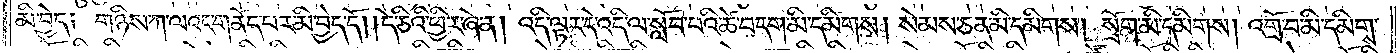མི་བྱེད། གཉིས་ཀ་ལའང་གནོད་པར་མི་བྱེད་དོ། །དེ་ཅིའི་ཕྱིར་ཞེ་ན། འདི་ལྟར་དེ་འདི་ལ་སློབ་པའི་ཚེ་བདག་མི་དམིགས། སེམས་ཅན་མི་དམིགས། སྲོག་མི་དམིགས། འགྲོ་བ་མི་དམིགས།
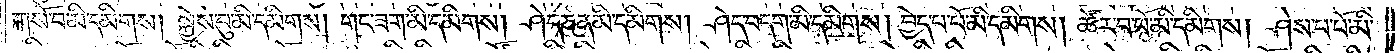གསོ་བ་མི་དམིགས། སྐྱེས་བུ་མི་དམིགས། གང་ཟག་མི་དམིགས། ཤེད་ཅན་མི་དམིགས། ཤེད་བདག་མི་དམིགས། བྱེད་པ་པོ་མི་དམིགས། ཚོར་བ་པོ་མི་དམིགས། ཤེས་པ་པོ་མི་
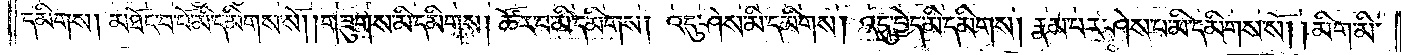དམིགས། མཐོང་བ་པོ་མི་དམིགས་སོ། །གཟུགས་མི་དམིགས། ཚོར་བ་མི་དམིགས། འདུ་ཤེས་མི་དམིགས། འདུ་བྱེད་མི་དམིགས། རྣམ་པར་ཤེས་པ་མི་དམིགས་སོ། །མིག་མི་
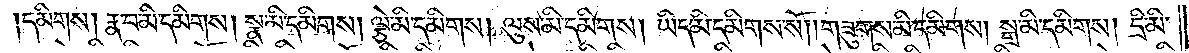དམིགས། རྣ་བ་མི་དམིགས། སྣ་མི་དམིགས། ལྕེ་མི་དམིགས། ལུས་མི་དམིགས། ཡིད་མི་དམིགས་སོ། །གཟུགས་མི་དམིགས། སྒྲ་མི་དམིགས། དྲི་མི་
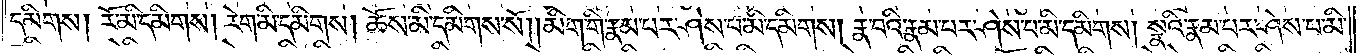དམིགས། རོ་མི་དམིགས། རེག་མི་དམིགས། ཆོས་མི་དམིགས་སོ། །མིག་གི་རྣམ་པར་ཤེས་པ་མི་དམིགས། རྣ་བའི་རྣམ་པར་ཤེས་པ་མི་དམིགས། སྣའི་རྣམ་པར་ཤེས་པ་མི་
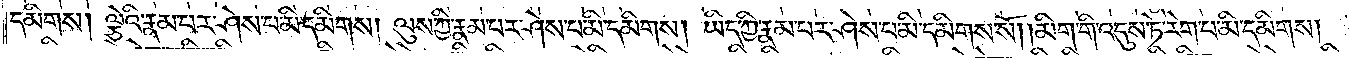དམིགས། ལྕེའི་རྣམ་པར་ཤེས་པ་མི་དམིགས། ལུས་ཀྱི་རྣམ་པར་ཤེས་པ་མི་དམིགས། ཡིད་ཀྱི་རྣམ་པར་ཤེས་པ་མི་དམིགས་སོ། །མིག་གི་འདུས་ཏེ་རེག་པ་མི་དམིགས།
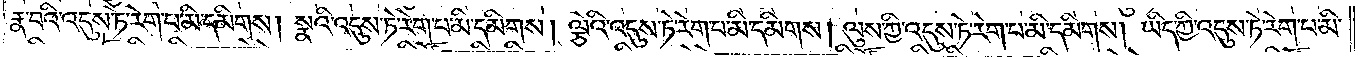རྣ་བའི་འདུས་ཏེ་རེག་པ་མི་དམིགས། སྣའི་འདུས་ཏེ་རེག་པ་མི་དམིགས། ལྕེའི་འདུས་ཏེ་རེག་པ་མི་དམིགས། ལུས་ཀྱི་འདུས་ཏེ་རེག་པ་མི་དམིགས། ཡིད་ཀྱི་འདུས་ཏེ་རེག་པ་མི་
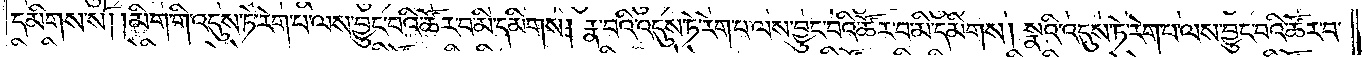དམིགས་སོ། །མིག་གི་འདུས་ཏེ་རེག་པ་ལས་བྱུང་བའི་ཚོར་བ་མི་དམིགས། རྣ་བའི་འདུས་ཏེ་རེག་པ་ལས་བྱུང་བའི་ཚོར་བ་མི་དམིགས། སྣའི་འདུས་ཏེ་རེག་པ་ལས་བྱུང་བའི་ཚོར་བ་
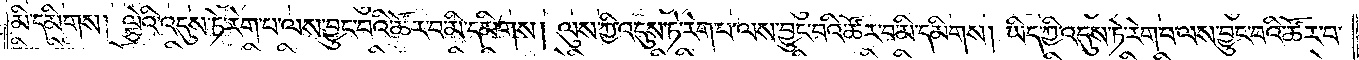མི་དམིགས། ལྕེའི་འདུས་ཏེ་རེག་པ་ལས་བྱུང་བའི་ཚོར་བ་མི་དམིགས། ལུས་ཀྱི་འདུས་ཏེ་རེག་པ་ལས་བྱུང་བའི་ཚོར་བ་མི་དམིགས། ཡིད་ཀྱི་འདུས་ཏེ་རེག་པ་ལས་བྱུང་བའི་ཚོར་བ་
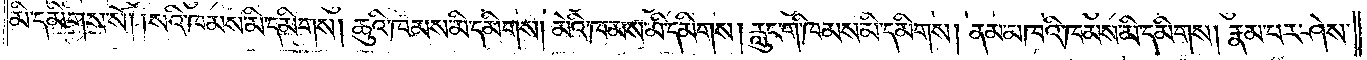མི་དམིགས་སོ། །སའི་ཁམས་མི་དམིགས། ཆུའི་ཁམས་མི་དམིགས། མེའི་ཁམས་མི་དམིགས། རླུང་གི་ཁམས་མི་དམིགས། ནམ་མཁའི་ཁམས་མི་དམིགས། རྣམ་པར་ཤེས་
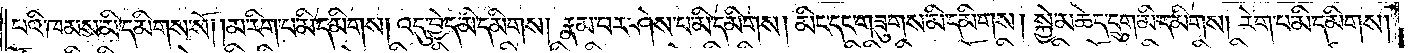པའི་ཁམས་མི་དམིགས་སོ། །མ་རིག་པ་མི་དམིགས། འདུ་བྱེད་མི་དམིགས། རྣམ་པར་ཤེས་པ་མི་དམིགས། མིང་དང་གཟུགས་མི་དམིགས། སྐྱེ་མཆེད་དྲུག་མི་དམིགས། རེག་པ་མི་དམིགས།
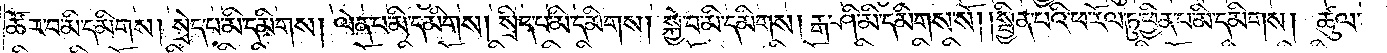ཚོར་བ་མི་དམིགས། སྲེད་པ་མི་དམིགས། ལེན་པ་མི་དམིགས། སྲིད་པ་མི་དམིགས། སྐྱེ་བ་མི་དམིགས། རྒ་ཤི་མི་དམིགས་སོ། །སྦྱིན་པའི་ཕ་རོལ་ཏུ་ཕྱིན་པ་མི་དམིགས། ཚུལ་
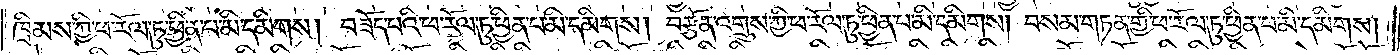ཁྲིམས་ཀྱི་ཕ་རོལ་ཏུ་ཕྱིན་པ་མི་དམིགས། བཟོད་པའི་ཕ་རོལ་ཏུ་ཕྱིན་པ་མི་དམིགས། བརྩོན་འགྲུས་ཀྱི་ཕ་རོལ་ཏུ་ཕྱིན་པ་མི་དམིགས། བསམ་གཏན་གྱི་ཕ་རོལ་ཏུ་ཕྱིན་པ་མི་དམིགས།
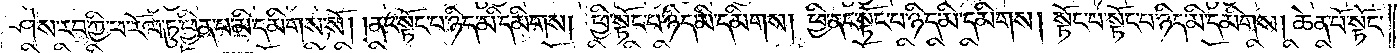ཤེས་རབ་ཀྱི་ཕ་རོལ་ཏུ་ཕྱིན་པ་མི་དམིགས་སོ། །ནང་སྟོང་པ་ཉིད་མི་དམིགས། ཕྱི་སྟོང་པ་ཉིད་མི་དམིགས། ཕྱི་ནང་སྟོང་པ་ཉིད་མི་དམིགས། སྟོང་པ་སྟོང་པ་ཉིད་མི་དམིགས། ཆེན་པོ་སྟོང་
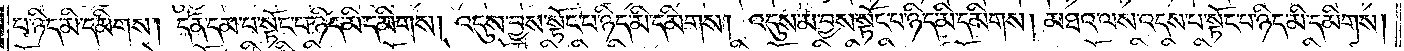པ་ཉིད་མི་དམིགས། དོན་དམ་པ་སྟོང་པ་ཉིད་མི་དམིགས། འདུས་བྱས་སྟོང་པ་ཉིད་མི་དམིགས། འདུས་མ་བྱས་སྟོང་པ་ཉིད་མི་དམིགས། མཐའ་ལས་འདས་པ་སྟོང་པ་ཉིད་མི་དམིགས།
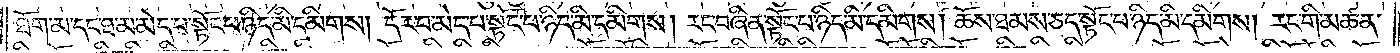ཐོག་མ་དང་ཐ་མ་མེད་པ་སྟོང་པ་ཉིད་མི་དམིགས། དོར་བ་མེད་པ་སྟོང་པ་ཉིད་མི་དམིགས། རང་བཞིན་སྟོང་པ་ཉིད་མི་དམིགས། ཆོས་ཐམས་ཅད་སྟོང་པ་ཉིད་མི་དམིགས། རང་གི་མཚན་
